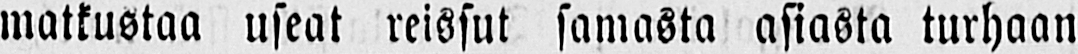matkustaa useat reissut samasta asiasta turhaan
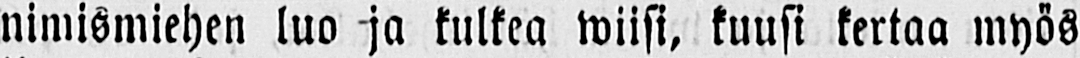nimismiehen luo ja kulkea wiisi, kuusi kertaa myös
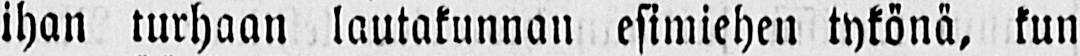ihan turhaan lautakunnan esimiehen tykönä, kun
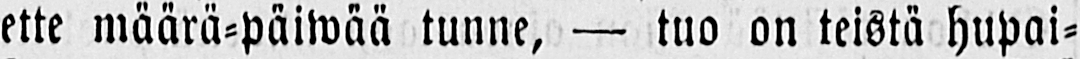ette määrä-päiwää tunne, — tuo on teistä hupai-
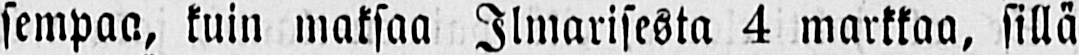sempaa, kuin maksaa Ilmarisesta 4 markkaa, sillä
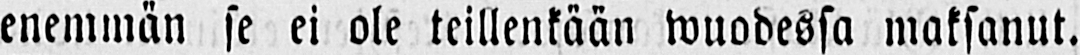enemmän se ei ole teillenkään wuodessa maksanut.
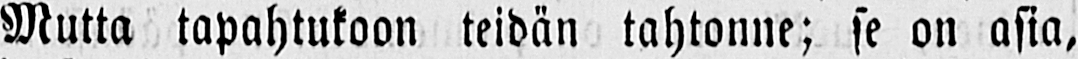Mutta tapahtukoon teidän tahtonne; se on asia,
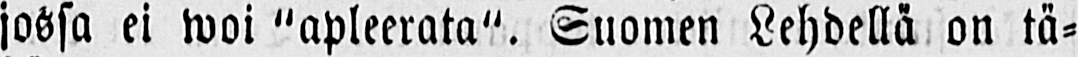jossa ei woi "apleerata". Suomen Lehdellä on tä-
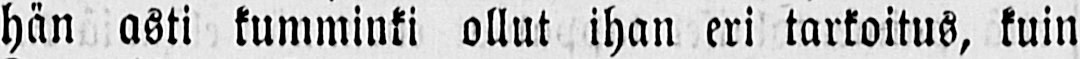hän asti kumminki ollut ihan eri tarkoitus, kuin
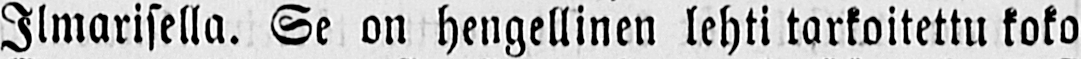Ilmarisella. Se on hengellinen lehti tarkoitettu koko
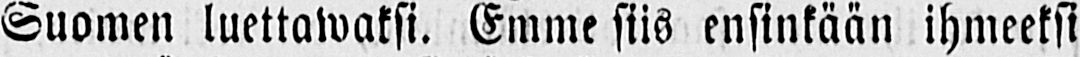Suomen luettawaksi. Emme siis ensinkään ihmeeksi
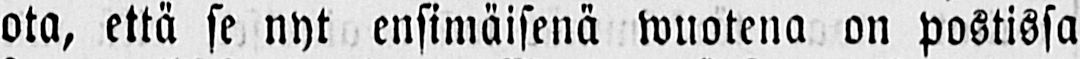ota, että se nyt ensimäisenä wuotena on postissa
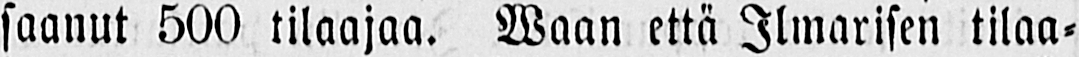saanut 500 tilaajaa. Waan että Ilmarisen tilaa-
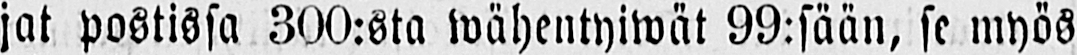jat postissa 300:sta wähentyiwät 99:sään, se myös
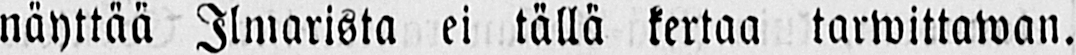näyttää Ilmarista ei tällä kertaa tarwittawan.
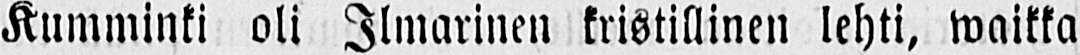Kumminki oli Ilmarinen kristillinen lehti, waikka
